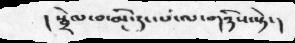།     སྦྲེལ་བ་མི་རུང་པ་ལ་གཉིས་སྟེ་།
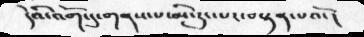དེའི་འོག་དུ་གནས་པ་མི་རུང་པར་བསྟན་པའོ་།
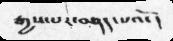རྒྱས་པར་བཤད་པའོ་།
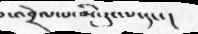བ་འབྲེལ་པ་མི་རུང་པ་དང་།
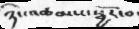ཉིང་འཚམས་སྦྱོར་བ་
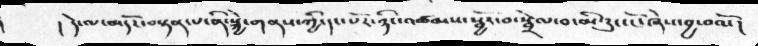།    ། དེ་ལ་མདོར་བསྟན་པ་ནི་སྐྱེ་གནས་ཀྱི་དང་པོར་ཉིང་འཚམས་སྦྱོར་བ་སྦྲེལ་བ་མི་རུང་ངོ་ཞེས་བྱ་བའོ་།
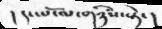། དང་པོ་ལ་གཉིས་ཏེ་།
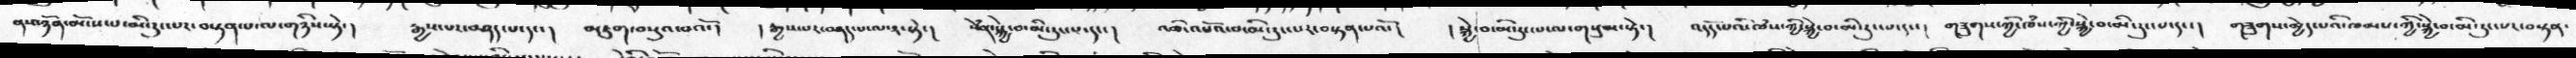ནས་ཉོན་མོངས་པ་མི་རུང་པར་བསྟན་པ་ལ་གཉིས་སྟེ་།  རྒྱས་པར་བཤད་པ་དང་།  མཇུག་བསྡུའ་བའོ་།  །རྒྱས་པར་བཤད་པ་ལ་༢་སྟེ་།  སེཾན་སྐྱེ་བ་མི་རུང་པ་དང་།   འཆི་འཕོའ་བ་མི་རུང་པར་བསྟན་པའོ་།   །སྐྱེ་བ་མི་རུང་པ་ལ་གསུམ་སྟེ་།  འདོད་པའི་ཁཾས་ཀྱི་སྐྱེ་བ་མི་རུང་པ་དང་།  གཟུགས་ཀྱི་ཁཾས་ཀྱི་སྐྱེ་བ་མི་རུང་པ་དང་།   གཟུགས་མྱེད་པའི་ཁམས་ཀྱི་སྐྱེ་བ་མི་རུང་པར་བསྟན་
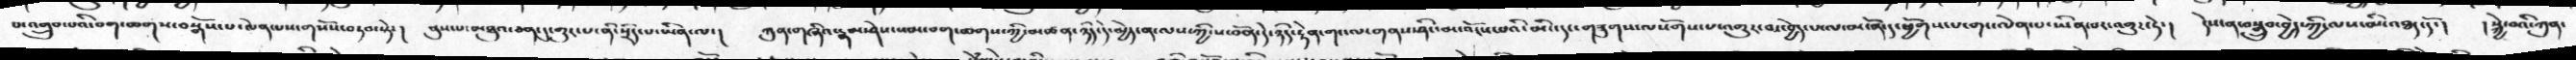པ་འགྲུབ་པའི་བག་ཆགས་བསྒོས་པ་ལེན་པས་གསོས་བཏབ་སྟེ་།  ནུས་པ་མཐུའ་ཅན་དུ་གྱུར་པ་ནི་སྲིད་པ་ཡིན་ལ་།  ཀུན་གཞིའ་རྣམ་ཤེས་སམ་བག་ཆགས་ཀྱི་མཚན་ཉིད་དེ་མྱེད་ན་ལས་ཀྱི་ས་བོན་དེ་ཉིད་རྟེན་གང་ལ་གནས་ཤིང་མ་འོངས་པའི་མི་དང་གཟུགས་ལསོགས་པ་འགྱུར་བར་བྱེད་པ་ལ་མངོན་དུ་ཕྱོགས་པ་གང་ལེན་པ་ཡིན་པར་འགྱུར་ཏེ་།    དེས་ན་བསྒྲུབ་བྱེད་ཀྱི་ལས་མི་འཐད་དོ་།  །སྐྱེ་བའི་ཀུན་
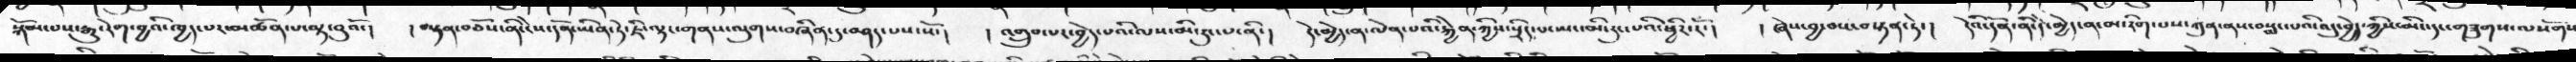སྐོམ་པས་རྒྱུ་རེག་བྱའི་ཁྱད་པར་མཚོན་པ་ལྟ་བུའོ་།   །བསྟན་བཅོས་ནི་ངེས་དོན་ཡིན་ཏེ་ཇི་ལྟར་གནས་ལུགས་བཞིན་དུ་བཤད་པས་སོ་།   །འགྲུབ་པར་བྱེད་པའི་ལས་མི་རུང་པ་ནི་།   དེ་མྱེད་ན་ལེན་པའི་རྐྱེན་ཀྱིས་སྲིད་པ་ཡང་མི་རུང་པའི་ཕྱིར་རོ་།   །ཞེས་བྱ་བས་བསྟན་ཏེ་།   དེའི་དོན་ནི་དེ་མྱེད་ན་མ་རིག་པས་ཀུན་ནས་བསླང་པའི་འདུ་བྱེད་ཀྱིས་མིང་དང་གཟུགས་ལསོགས
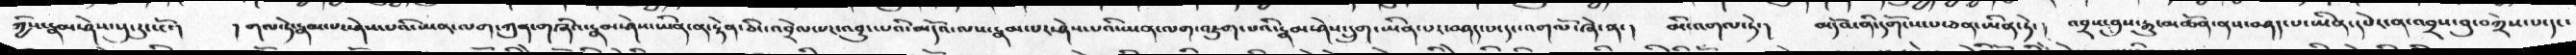ཀྱིས་རྣམ་ཤེས་སུ་རུངསོ་།  །གལ་ཏེ་རྣམ་པར་ཤེས་པའི་ཡན་ལག་ཀུན་གཞིའ་རྣམ་ཤེས་ཡིན་ན་རྟེན་ཅིང་འབྲེལ་པར་འབྱུང་པའི་མདོའ་ལས་རྣམ་པར་ཤེས་པའི་ཡན་ལག་འཇུག་པའི་རྣམ་ཤེས་དྲུག་ཡིན་པར་བཤད་པ་དང་འགལོ་ཞེ་ན་།  མི་འགལ་ཏེ་།  མདོའ་ནི་དགོངས་པ་ཅན་ཡིན་ཏེ་།   འབྲས་བུས་རྒྱུ་མཚོན་ནས་བཤད་པ་ཡིན་དཔེར་ན་འབྲས་བུ་བཀྲེས་པ་དང་
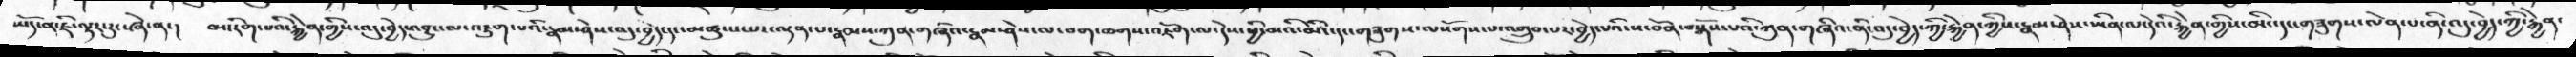ཡོད་ན་ཇི་ལྟར་རུང་ཞེ་ན་།  མ་རིག་པའི་རྐྱེན་གྱིས་འདུ་བྱེད་འབྱུང་ལ་འཇུག་པའི་རྣམ་ཤེས་འདུ་བྱེད་དང་མཚུངས་པར་ལྡན་པ་རྣམས་ཀུན་གཞིའ་རྣམ་ཤེས་ལ་བག་ཆགས་འཇོག་ལ་དེས་ཕྱི་མའི་མིང་དང་གཟུགས་ལསོགས་པ་འགྲུབ་པར་བྱེད་པའི་ས་བོན་བསྒོས་པའི་ཀུན་གཞིའ་ནི་འདུ་བྱེད་ཀྱི་རྐྱེན་གྱིས་རྣམ་ཤེས་ཡིན་ལ་དེའི་རྐྱེན་གྱིས་མིང་དང་གཟུགས་ལེན་པ་ནི་འདུ་བྱེད་ཀྱི་རྐྱེན་
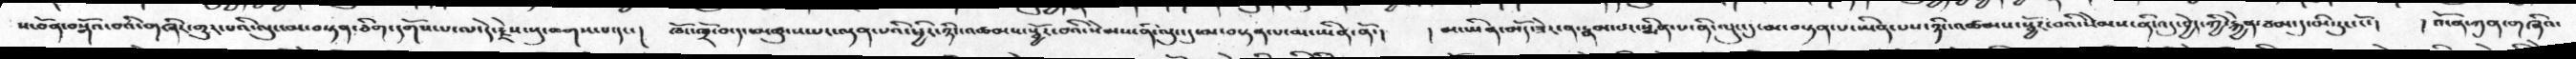ས་བོན་བསྒོའ་བའི་གཞིར་གྱུར་པའི་ལུང་མ་བསྟན་ཅིག་དགོས་པ་ལ་དེ་རྗེས་སུ་ཆགས་པ་དང་།  ཁོང་ཁྲོ་བ་དང་མཚུངས་པར་བསྟན་པའི་ཕྱིར་ཉིང་འཚམས་སྦྱོར་བའི་སེམས་ནི་ལུང་དུ་མ་བསྟན་པ་མ་ཡིན་ནོ་།  །མ་ཡིན་མོད་ཟེར་ན་རྣམ་པར་སྨིན་པ་ནི་ལུང་དུ་མ་བསྟན་པ་ཡིན་པས་ཉིང་འཚམས་སྦྱོར་བའི་སེམས་ནི་འདུ་བྱེད་གྱི་རྐྱེན་ཙམ་དུ་མི་རུང་ངོ་།  ། འོ་ན་ཀུན་གཞིའ་
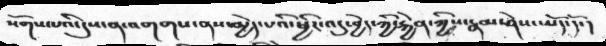སོགས་པའི་དུས་ན་འགགས་ནས་མྱེད་པའི་ཕྱིར་འདུ་བྱེད་ཀྱི་རྐྱེན་ཀྱིས་རྣམ་ཤེས་ཡོད་དོ་།
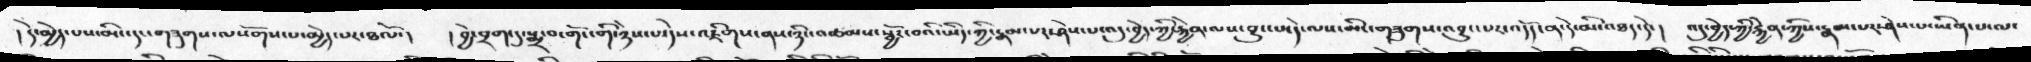། དེ་མྱེད་པས་མིང་དང་གཟུགས་ལསོགས་པ་མྱེད་པར་ཐལོ་།   །བྱེ་བྲག་དུ་སྨྲ་བ་གོང་གི་ཉེས་པ་དེས་འཇིགས་ནས་ཉིང་འཚམས་སྦྱོར་བའི་ཡིད་གྱི་རྣམ་པར་ཤེས་པ་འདུ་བྱེད་ཀྱི་རྐྱེན་ལས་བྱུང་པ་དེ་ལས་མིང་གཟུགས་འབྱུང་པར་འདོད་ན་དེ་མི་འཐད་དེ་།  འདུ་བྱེད་ཀྱི་རྐྱེན་ཀྱིས་རྣམ་པར་ཤེས་པ་ཡིན་པ་ལ་
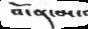བོ་ན་མ་བ
